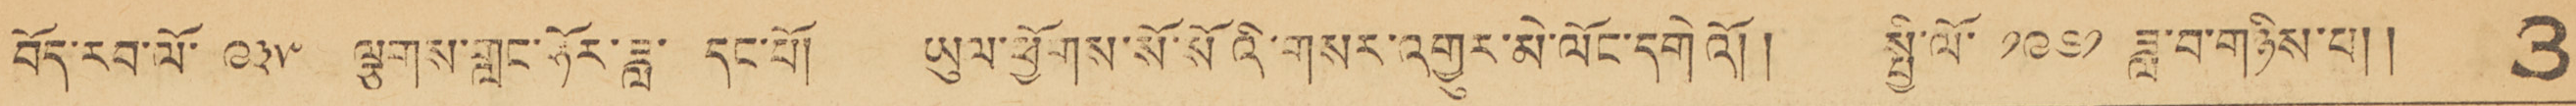བོད་རབ་ལོ་ ༩༣༥ ལྕགས་གླང་ཧོར་ཟླ་ དང་པོ། ཡུལ་ཕྱོགས་སོ་སོའི་གསར་འགྱུར་མེ་ལོང་དགེའོ།། སྤྱི་ལོ་ ༡༩༦༡ ཟླ་བ་གཉིས་པ།། 3
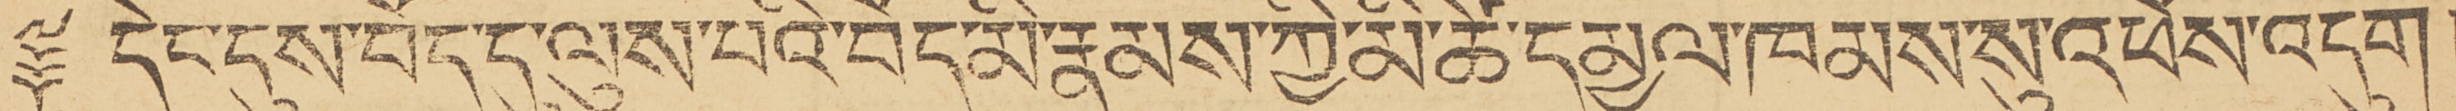༈ དེང་དུས་བོད་དུ་ལུས་པའི་བོད་མི་རྣམས་ཀྱི་མི་ཚེ་དམྱལ་ཁམས་སུ་འཕོས་འདུག།
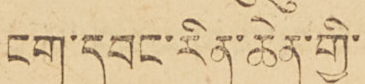ངག་དབང་རིན་ཆེན་གྱི་
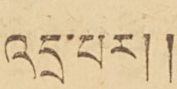འདྲ་པར།།
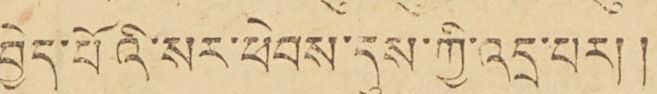བྱེད་པོའི་སར་ཕེབས་དུས་ཀྱི་འདྲ་པར།།
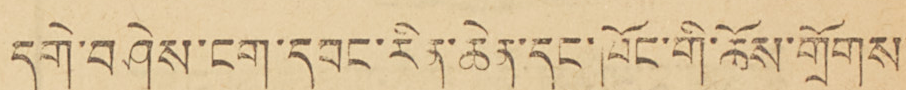དགེ་བཤེས་ངག་དབང་རིན་ཆེན་དང་ཁོང་གི་ཆོས་གྲོགས་
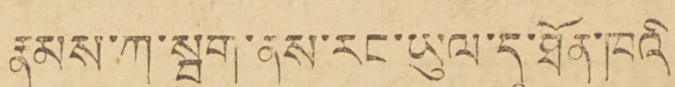རྣམས་ཀ་སྦུག་ནས་རང་ཡུལ་དུ་ཐོན་ཁའི་
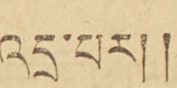འདྲ་པར།།
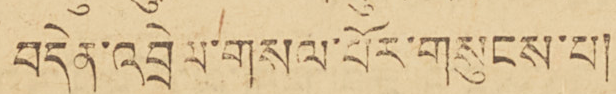བདེན་འབྲེལ་གསལ་པོར་གསུངས་པ།
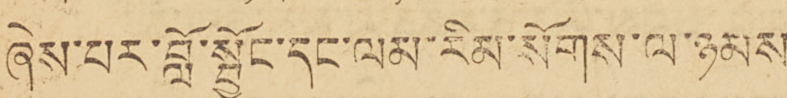ཞེས་པར་བློ་སྦྱོང་དང་ལམ་རིམ་སོགས་ལ་ཉམས
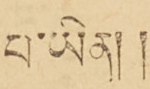པ་ཡིན།།
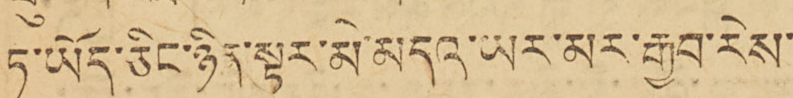ཏུ་ཡོད་ཅིང་ཉིན་སྟར་མེ་མདའ་ཡར་མར་རྒྱབ་རེས་
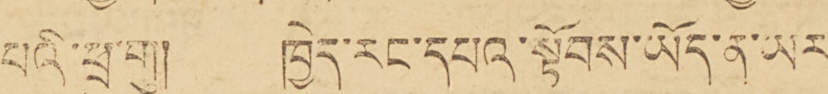པའི་ཕྲུ་གྲུ། ཁྱེད་རང་དཔའ་སྟོབས་ཡོད་ན་ཡར་
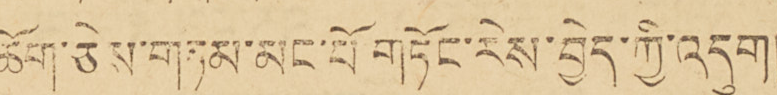ཆོག་ཅེས་གཏམ་མང་པོ་གཏོང་རེས་བྱེད་ཀྱི་འདུག།
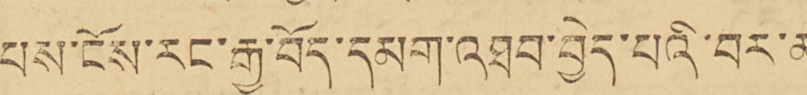པས་ངོས་རང་རྒྱ་བོད་དམག་འཐབ་བྱེད་པའི་བར་ན་
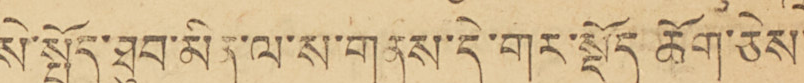སེ་སྤྲོད་ཐུབ་མིན་ལ་ས་གནས་དེ་གར་སྡོད་ཆོག་ཅེས་
